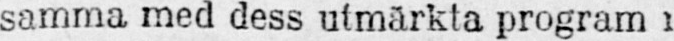samma med dess utmärkta program i
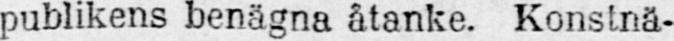publikens benägna åtanke. Konstnä-
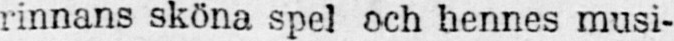rinnans sköna spel och hennes musi-
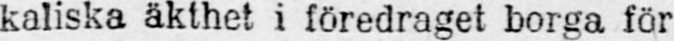kaliska äkthet i föredraget borga för
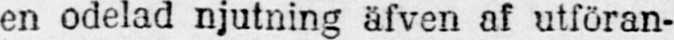en odelad njutning äfven af utföran-
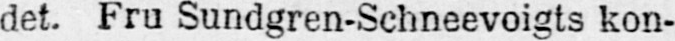det. Fru Sundgren-Schneevoigts kon-
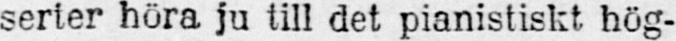serter höra ju till det pianistiskt hög-
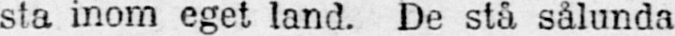sta inom eget land. De stå sålunda
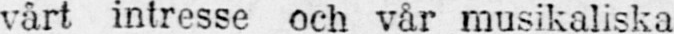vårt intresse och vår musikaliska
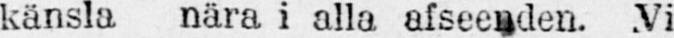känsla nära i alla afseenden. Vi
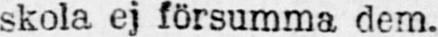skola ej försumma dem.
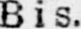Bis.
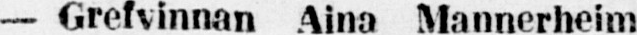— Grefvinnan Aina Mannerheim
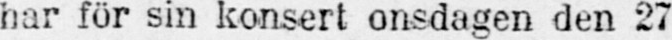har för sin konsert onsdagen den 27
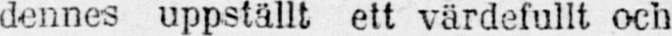dennes uppställt ett värdefullt och
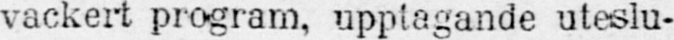vackert program, upptagande uteslu-
